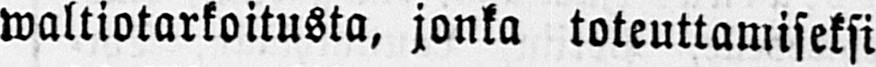valtiotarkoitusta, jonka toteuttamiseksi
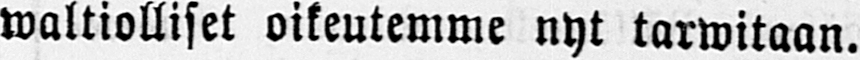waltiolliset oikeutemme nyt tarwitaan.
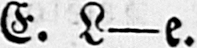E. L—e.
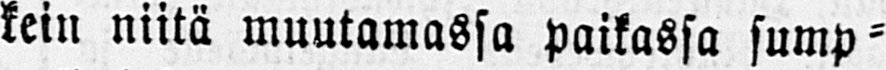kein niitä muutamassa paikassa sump-
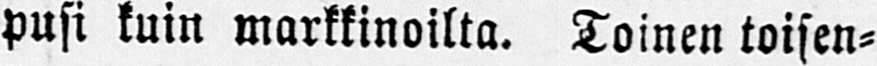pusi kuin markkinoilta. Toinen toisen-
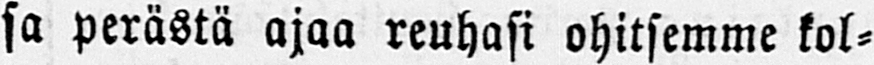sa perästä ajaa reuhasi ohitsemme kol-
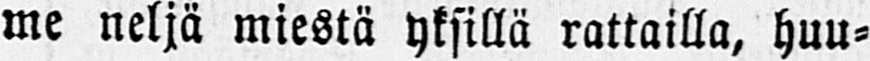me neljä miestä yksillä rattailla, huu-
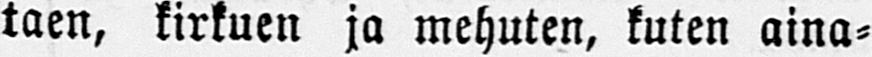taen, kirkuen ja mehuten, kuten aina-
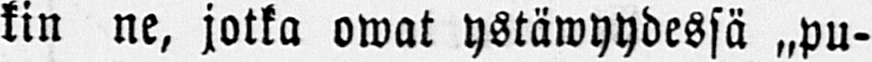kin ne, jotka owat ystäwyydessä „pu-
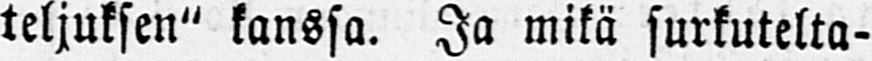teljuksen" kanssa. Ja mikä surkutelta-
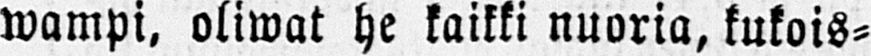wampi, oliwat he kaikki nuoria, kukois-
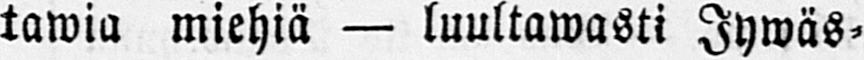tawia miehiä — luultawasti Jywäs-
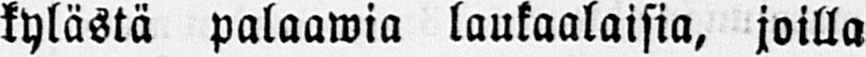kylästä palaawia laukaalaisia, joilla
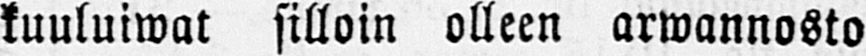kuuluiwat silloin olleen arwannosto
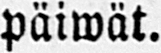päiwät.
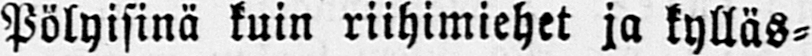Pölyisinä kuin riihimiehet ja kylläs-
